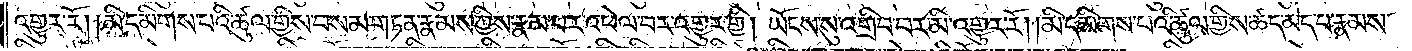འགྱུར་རོ། །མི་དམིགས་པའི་ཚུལ་གྱིས་བསམ་གཏན་རྣམས་ཀྱིས་རྣམ་པར་འཕེལ་བར་འགྱུར་གྱི། ཡོངས་སུ་འགྲིབ་པར་མི་འགྱུར་རོ། །མི་དམིགས་པའི་ཚུལ་གྱིས་ཚད་མེད་པ་རྣམས་
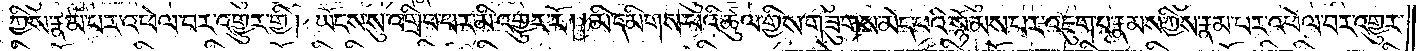ཀྱིས་རྣམ་པར་འཕེལ་བར་འགྱུར་གྱི། ཡོངས་སུ་འགྲིབ་པར་མི་འགྱུར་རོ། །མི་དམིགས་པའི་ཚུལ་གྱིས་གཟུགས་མེད་པའི་སྙོམས་པར་འཇུག་པ་རྣམས་ཀྱིས་རྣམ་པར་འཕེལ་བར་འགྱུར་
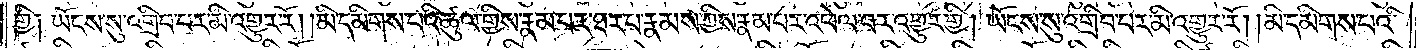གྱི༑ ཡོངས་སུ་འགྲིབ་པར་མི་འགྱུར་རོ། །མི་དམིགས་པའི་ཚུལ་གྱིས་རྣམ་པར་ཐར་པ་རྣམས་ཀྱིས་རྣམ་པར་འཕེལ་བར་འགྱུར་གྱི། ཡོངས་སུ་འགྲིབ་པར་མི་འགྱུར་རོ། །མི་དམིགས་པའི་
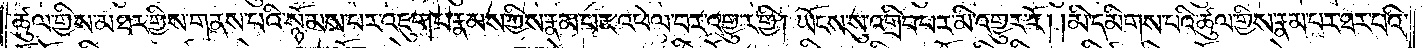ཚུལ་གྱིས་མཐར་གྱིས་གནས་པའི་སྙོམས་པར་འཇུག་པ་རྣམས་ཀྱིས་རྣམ་པར་འཕེལ་བར་འགྱུར་གྱི། ཡོངས་སུ་འགྲིབ་པར་མི་འགྱུར་རོ། །མི་དམིགས་པའི་ཚུལ་གྱིས་རྣམ་པར་ཐར་པའི་
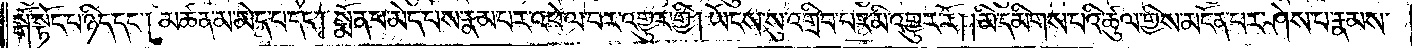སྒོ་སྟོང་པ་ཉིད་དང༌། མཚན་མ་མེད་པ་དང༌། སྨོན་པ་མེད་པས་རྣམ་པར་འཕེལ་བར་འགྱུར་གྱི། ཡོངས་སུ་འགྲིབ་པར་མི་འགྱུར་རོ། །མི་དམིགས་པའི་ཚུལ་གྱིས་མངོན་པར་ཤེས་པ་རྣམས་
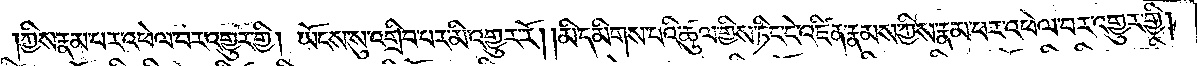ཀྱིས་རྣམ་པར་འཕེལ་བར་འགྱུར་གྱི། ཡོངས་སུ་འགྲིབ་པར་མི་འགྱུར་རོ། །མི་དམིགས་པའི་ཚུལ་གྱིས་ཏིང་ངེ་འཛིན་རྣམས་ཀྱིས་རྣམ་པར་འཕེལ་བར་འགྱུར་གྱི།
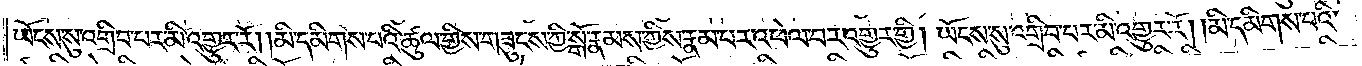ཡོངས་སུ་འགྲིབ་པར་མི་འགྱུར་རོ། །མི་དམིགས་པའི་ཚུལ་གྱིས་གཟུངས་ཀྱི་སྒོ་རྣམས་ཀྱིས་རྣམ་པར་འཕེལ་བར་འགྱུར་གྱི། ཡོངས་སུ་འགྲིབ་པར་མི་འགྱུར་རོ། །མི་དམིགས་པའི་
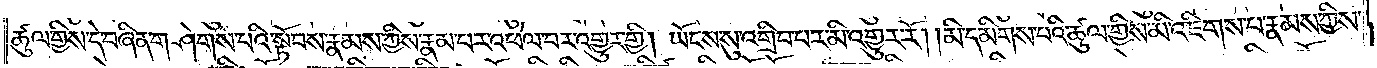ཚུལ་གྱིས་དེ་བཞིན་གཤེགས་པའི་སྟོབས་རྣམས་ཀྱིས་རྣམ་པར་འཕེལ་བར་འགྱུར་གྱི། ཡོངས་སུ་འགྲིབ་པར་མི་འགྱུར་རོ། །མི་དམིགས་པའི་ཚུལ་གྱིས་མི་འཇིགས་པ་རྣམས་ཀྱིས་
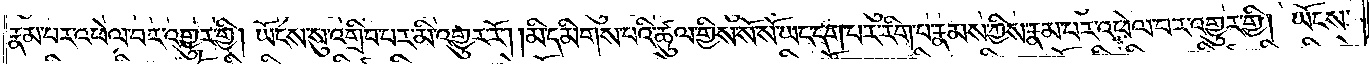རྣམ་པར་འཕེལ་བར་འགྱུར་གྱི། ཡོངས་སུ་འགྲིབ་པར་མི་འགྱུར་རོ། །མི་དམིགས་པའི་ཚུལ་གྱིས་སོ་སོ་ཡང་དག་པར་རིག་པ་རྣམས་ཀྱིས་རྣམ་པར་འཕེལ་བར་འགྱུར་གྱི། ཡོངས་
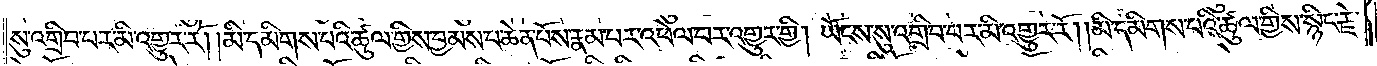སུ་འགྲིབ་པར་མི་འགྱུར་རོ། །མི་དམིགས་པའི་ཚུལ་གྱིས་བྱམས་པ་ཆེན་པོས་རྣམ་པར་འཕེལ་བར་འགྱུར་གྱི། ཡོངས་སུ་འགྲིབ་པར་མི་འགྱུར་རོ། །མི་དམིགས་པའི་ཚུལ་གྱིས་སྙིང་རྗེ་
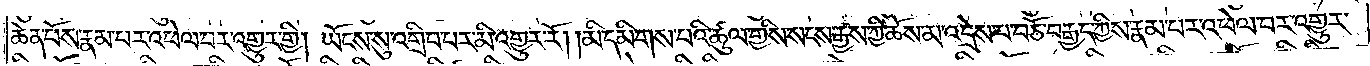ཆེན་པོས་རྣམ་པར་འཕེལ་བར་འགྱུར་གྱི། ཡོངས་སུ་འགྲིབ་པར་མི་འགྱུར་རོ། །མི་དམིགས་པའི་ཚུལ་གྱིས་སངས་རྒྱས་ཀྱི་ཆོས་མ་འདྲེས་པ་བཅོ་བརྒྱད་ཀྱིས་རྣམ་པར་འཕེལ་བར་འགྱུར་
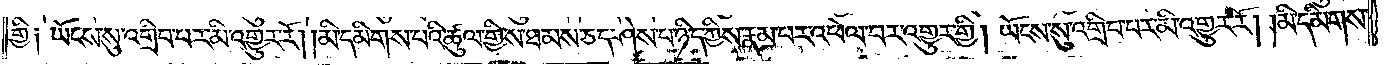གྱི། ཡོངས་སུ་འགྲིབ་པར་མི་འགྱུར་རོ། །མི་དམིགས་པའི་ཚུལ་གྱིས་ཐམས་ཅད་ཤེས་པ་ཉིད་ཀྱིས་རྣམ་པར་འཕེལ་བར་འགྱུར་གྱི། ཡོངས་སུ་འགྲིབ་པར་མི་འགྱུར་རོ། །མི་དམིགས་
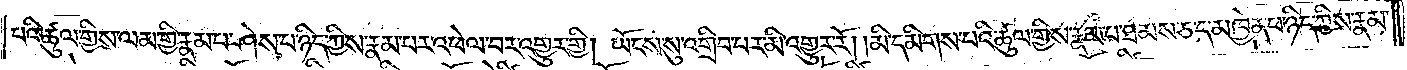པའི་ཚུལ་གྱིས་ལམ་གྱི་རྣམ་པ་ཤེས་པ་ཉིད་ཀྱིས་རྣམ་པར་འཕེལ་བར་འགྱུར་གྱི། ཡོངས་སུ་འགྲིབ་པར་མི་འགྱུར་རོ། །མི་དམིགས་པའི་ཚུལ་གྱིས་རྣམ་པ་ཐམས་ཅད་མཁྱེན་པ་ཉིད་ཀྱིས་རྣམ་
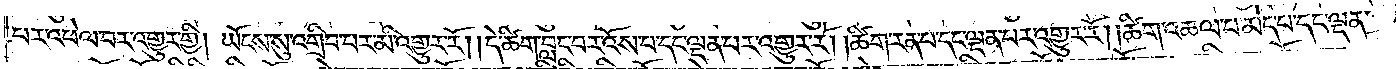པར་འཕེལ་བར་འགྱུར་གྱི། ཡོངས་སུ་འགྲིབ་པར་མི་འགྱུར་རོ། །དེ་ཚིག་བླང་བར་འོས་པ་དང་ལྡན་པར་འགྱུར་རོ། །ཚིག་རན་པ་དང་ལྡན་པར་འགྱུར་རོ། །ཚིག་འཆལ་པ་མེད་པ་དང་ལྡན་
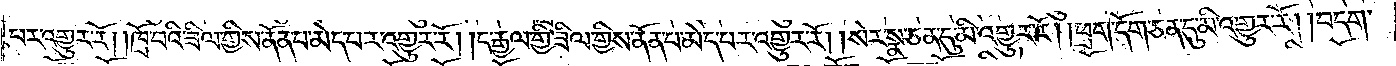པར་འགྱུར་རོ། །ཁྲོ་བའི་ཟིལ་གྱིས་ནོན་པ་མེད་པར་འགྱུར་རོ། །ང་རྒྱལ་གྱི་ཟིལ་གྱིས་ནོན་པ་མེད་པར་འགྱུར་རོ། །སེར་སྣ་ཅན་དུ་མི་འགྱུར་རོ། །ཕྲག་དོག་ཅན་དུ་མི་འགྱུར་རོ། །བདག་
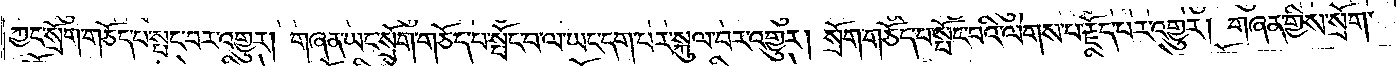ཀྱང་སྲོག་གཅོད་པ་སྤང་བར་འགྱུར། གཞན་ཡང་སྲོག་གཅོད་པ་སྤོང་པ་ལ་ཡང་དག་པར་སྐུལ་བར་འགྱུར། སྲོག་གཅོད་པ་སྤོང་བའི་ལེགས་པ་རྗོད་པར་འགྱུར། གཞན་གྱིས་སྲོག་
